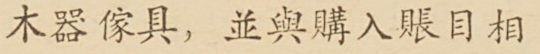木器傢具，並與購入賬目相
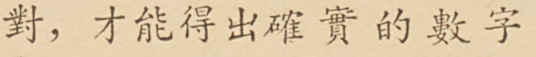對，才能得出確實的數字
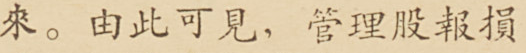來。由此可見，管理股報損
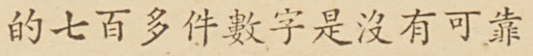的七百多件數字是沒有可靠
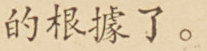的根據了。
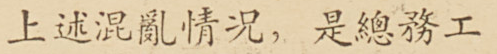上述混亂情況，是總務工
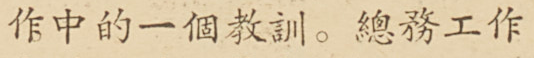作中的一個教訓。總務工作
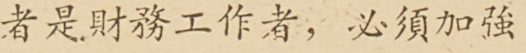者是財務工作者，必須加強
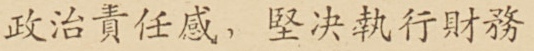政治責任感，堅決執行財物
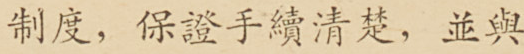制度，保證手續清楚，並與
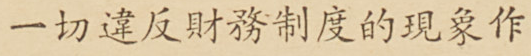一切違反財務制度的現象作
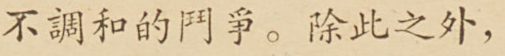不調和的鬥爭。除此之外，
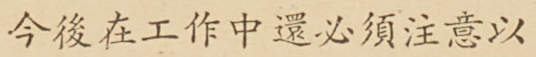今後在工作中還必須注意以
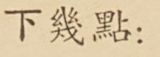下幾點：
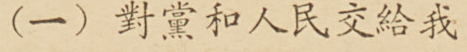（一）對黨和人民交給我
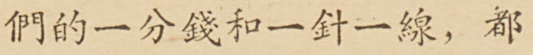們的一分錢和一針一線，都
